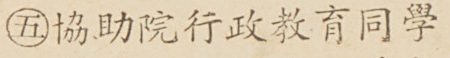㊄協助院行政教育同學
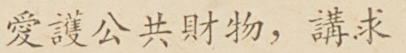愛護公共財物，講求
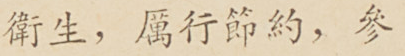衛生，厲行節約，參
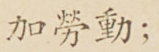加勞動；
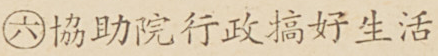㊅協助院行政搞好生活
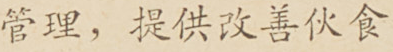管理，提供改善伙食
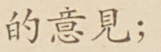的意見；
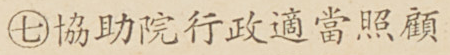㊆協助院行政適當照顧
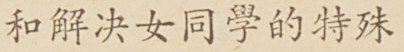和解決女同學的特殊
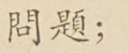問題；
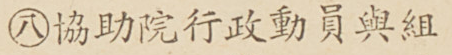㊇協助院行政動員與組
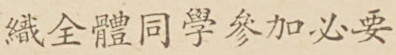織全體同學參加必要
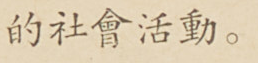的社會活動。
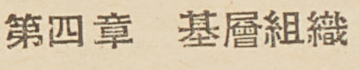第四章 基層組織
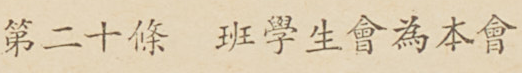第二十條 班學生會為本會
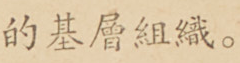的基層組織。
